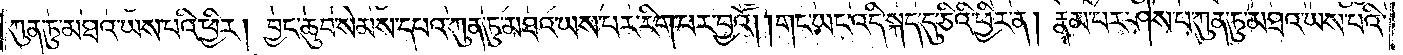ཀུན་ཏུ་མཐའ་ཡས་པའི་ཕྱིར། བྱང་ཆུབ་སེམས་དཔའ་ཀུན་ཏུ་མཐའ་ཡས་པར་རིག་པར་བྱའོ། །གང་ཡང་འདི་སྐད་དུ་ཅིའི་ཕྱིར་ན། རྣམ་པར་ཤེས་པ་ཀུན་ཏུ་མཐའ་ཡས་པའི་
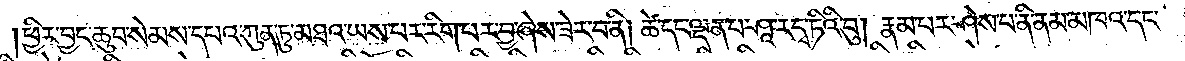ཕྱིར་བྱང་ཆུབ་སེམས་དཔའ་ཀུན་ཏུ་མཐའ་ཡས་པར་རིག་པར་བྱ་ཞེས་ཟེར་བ་ནི། ཚེ་དང་ལྡན་པ་ཤཱ་ར་དྭ་ཏིའི་བུ། རྣམ་པར་ཤེས་པ་ནི་ནམ་མཁའ་དང་
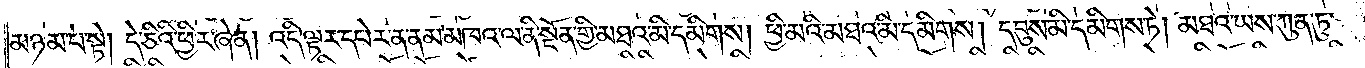མཉམ་པ་སྟེ། དེ་ཅིའི་ཕྱིར་ཞེ་ན། འདི་ལྟར་དཔེར་ན་ནམ་མཁའ་ལ་ནི་སྔོན་གྱི་མཐའ་མི་དམིགས། ཕྱི་མའི་མཐའ་མི་དམིགས། དབུས་མི་དམིགས་ཏེ། མཐའ་ཡས་ཀུན་ཏུ་
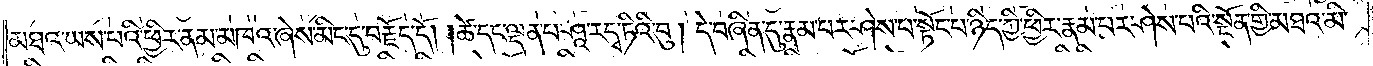མཐའ་ཡས་པའི་ཕྱིར་ནམ་མཁའ་ཞེས་མིང་དུ་བརྗོད་དོ། །ཚེ་དང་ལྡན་པ་ཤཱ་ར་དྭ་ཏིའི་བུ། དེ་བཞིན་དུ་རྣམ་པར་ཤེས་པ་སྟོང་པ་ཉིད་ཀྱི་ཕྱིར་རྣམ་པར་ཤེས་པའི་སྔོན་གྱི་མཐའ་མི་
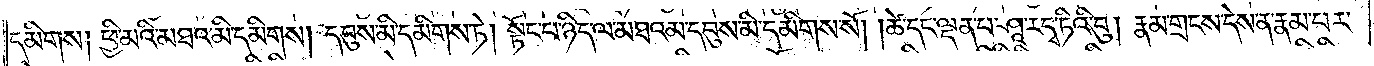དམིགས། ཕྱི་མའི་མཐའ་མི་དམིགས། དབུས་མི་དམིགས་ཏེ། སྟོང་པ་ཉིད་ལ་མཐའམ་དབུས་མི་དམིགས་སོ། །ཚེ་དང་ལྡན་པ་ཤཱ་ར་དྭ་ཏིའི་བུ། རྣམ་གྲངས་དེས་ན་རྣམ་པར་
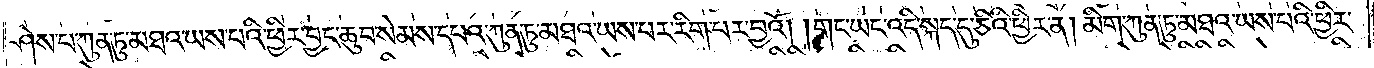ཤེས་པ་ཀུན་ཏུ་མཐའ་ཡས་པའི་ཕྱིར་བྱང་ཆུབ་སེམས་དཔའ་ཀུན་ཏུ་མཐའ་ཡས་པར་རིག་པར་བྱའོ། །གང་ཡང་འདི་སྐད་དུ་ཅིའི་ཕྱིར་ན། མིག་ཀུན་ཏུ་མཐའ་ཡས་པའི་བྱ་ཕྱིར་
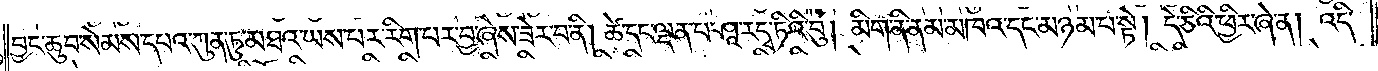བྱང་ཆུབ་སེམས་དཔའ་ཀུན་ཏུ་མཐའ་ཡས་པར་རིག་པར་བྱ་ཞེས་ཟེར་བ་ནི། ཚེ་དང་ལྡན་པ་ཤཱ་ར་དྭ་ཏིའི་བུ། མིག་ནི་ནམ་མཁའ་དང་མཉམ་པ་སྟེ། དེ་ཅིའི་ཕྱིར་ཞེ་ན། འདི་
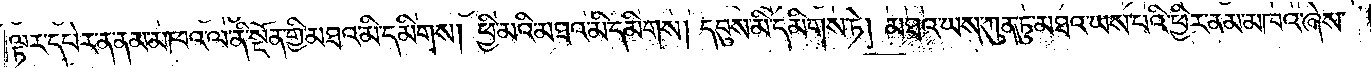ལྟར་དཔེར་ན་ནམ་མཁའ་ལ་ནི་སྔོན་གྱི་མཐའ་མི་དམིགས། ཕྱི་མའི་མཐའ་མི་དམིགས། དབུས་མི་དམིགས་ཏེ། མཐའ་ཡས་ཀུན་ཏུ་མཐའ་ཡས་པའི་ཕྱིར་ནམ་མཁའ་ཞེས་
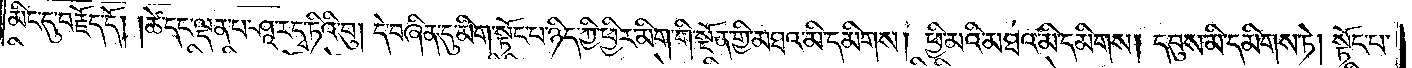མིང་དུ་བརྗོད་དོ། །ཚེ་དང་ལྡན་པ་ཤཱ་ར་དྭ་ཏིའི་བུ། དེ་བཞིན་དུ་མིག་སྟོང་པ་ཉིད་ཀྱི་ཕྱིར་མིག་གི་སྔོན་གྱི་མཐའ་མི་དམིགས། ཕྱི་མའི་མཐའ་མི་དམིགས། དབུས་མི་དམིགས་ཏེ། སྟོང་པ་
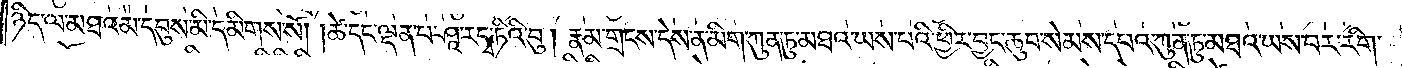ཉིད་ལ་མཐའམ་དབུས་མི་དམིགས་སོ། །ཚེ་དང་ལྡན་པ་ཤཱ་ར་དྭ་ཏིའི་བུ། རྣམ་གྲངས་དེས་ན་མིག་ཀུན་ཏུ་མཐའ་ཡས་པའི་ཕྱིར་བྱང་ཆུབ་དཔའ་ཀུན་ཏུ་མཐའ་ཡས་པར་རིག་
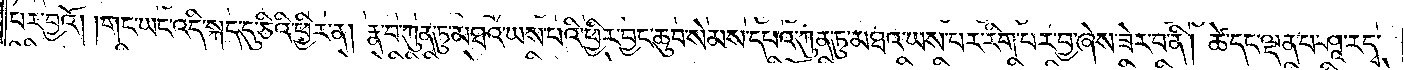པར་བྱའོ། །གང་ཡང་འདི་སྐད་དུ་ཅིའི་ཕྱིར་ན། རྣ་བ་ཀུན་ཏུ་མཐའ་ཡས་པའི་ཕྱིར་བྱང་ཆུབ་སེམས་དཔའ་ཀུན་ཏུ་མཐའ་ཡས་པར་རིག་པར་བྱ་ཞེས་ཟེར་བ་ནི། ཚེ་དང་ལྡན་པ་ཤཱ་ར་དྭ་
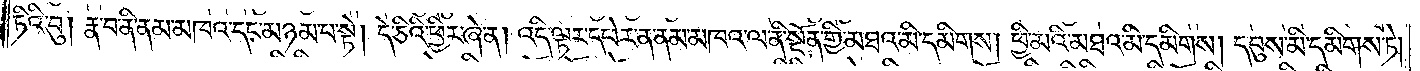ཏིའི་བུ། རྣ་བ་ནི་ནམ་མཁའ་དང་མཉམ་པ་སྟེ། དེ་ཅིའི་ཕྱིར་ཞེ་ན། འདི་ལྟར་དཔེར་ན་ནམ་མཁའ་ལ་ནི་སྔོན་གྱི་མཐའ་མི་དམིགས། ཕྱི་མའི་མཐའ་མི་དམིགས། དབུས་མི་དམིགས་ཏེ།
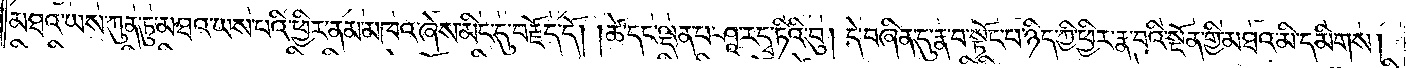མཐའ་ཡས་ཀུན་ཏུ་མཐའ་ཡས་པའི་ཕྱིར་ནམ་མཁའ་ཞེས་མིང་དུ་བརྗོད་དོ། །ཚེ་དང་ལྡན་པ་ཤཱ་ར་དྭ་ཏིའི་བུ། དེ་བཞིན་དུ་རྣ་བ་སྟོང་པ་ཉིད་ཀྱི་ཕྱིར་རྣ་བའི་སྔོན་གྱི་མཐའ་མི་དམིགས།
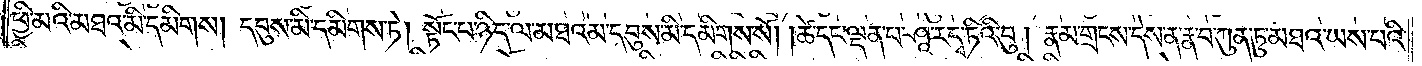ཕྱི་མའི་མཐའ་མི་དམིགས། དབུས་མི་དམིགས་ཏེ། སྟོང་པ་ཉིད་ལ་མཐའམ་དབུས་མི་དམིགས་སོ། །ཚེ་དང་ལྡན་པ་ཤཱ་ར་དྭ་ཏིའི་བུ། རྣམ་གྲངས་དེས་ན་རྣ་བ་ཀུན་ཏུ་མཐའ་ཡས་པའི་
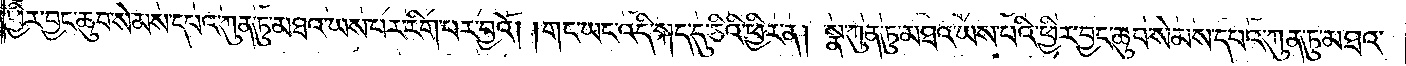ཕྱིར་བྱང་ཆུབ་སེམས་དཔའ་ཀུན་ཏུ་མཐའ་ཡས་པར་རིག་པར་བྱའོ། །གང་ཡང་འདི་སྐད་དུ་ཅིའི་ཕྱིར་ན། སྣ་ཀུན་ཏུ་མཐའ་ཡས་པའི་ཕྱིར་བྱང་ཆུབ་སེམས་དཔའ་ཀུན་ཏུ་མཐའ་
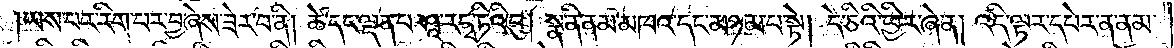ཡས་པར་རིག་པར་བྱ་ཞེས་ཟེར་བ་ནི། །ཚེ་དང་ལྡན་པ་ཤཱ་ར་དྭ་ཏིའི་བུ། སྣ་ནི་ནམ་མཁའ་དང་མཉམ་པ་སྟེ། དེ་ཅིའི་ཕྱིར་ཞེ་ན། འདི་ལྟར་དཔེར་ན་ནམ་
